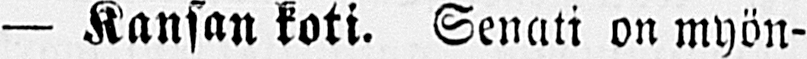— Kansan koti. Senati on myön-
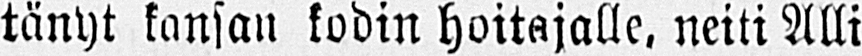tänyt kansan kodin hoitajalle, neiti Alli
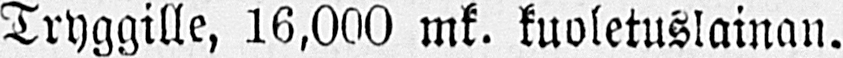Tryggille, 16,000 mk. kuoletuslainan.
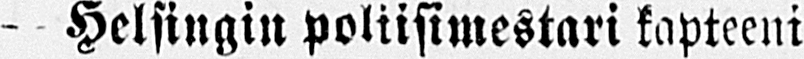- Helsingin poliisimestari kapteeni
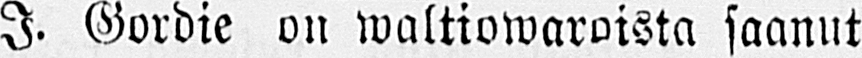I. Gordie on waltiowaroista saanut
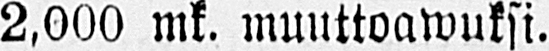2,000 mk. muuttoawuksi.
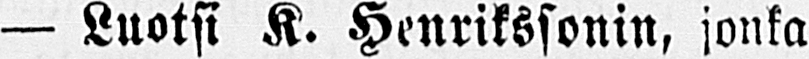— Luotsi K. Henrikssonin, jonka
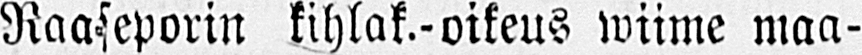Raaseporin kihlak.-oikeus wiime maa-
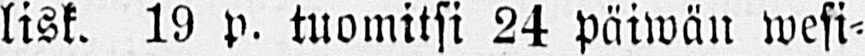lisk. 19 p. tuomitsi 24 päiwän wesi-
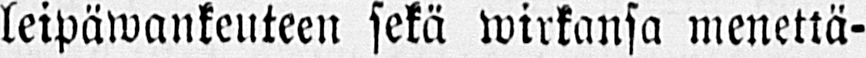leipäwankeuteen sekä wirkansa menettä-
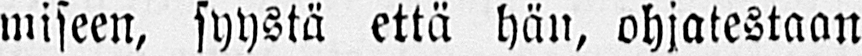miseen, syystä että hän, ohjatestaan
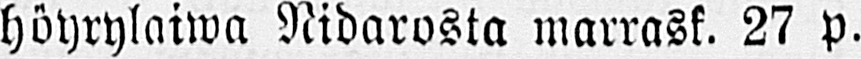höyrylaiwa Nidarosta marrask. 27 p.
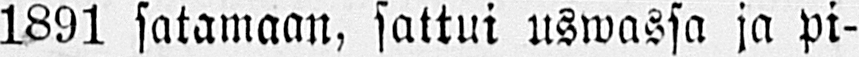1891 satamaan, sattui uswassa ja pi-
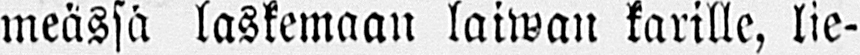meässä laskemaan laiwan karille, lie-
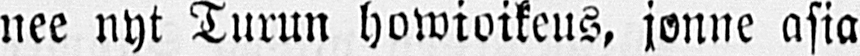nee nyt Turun howioikeus, jonne asia
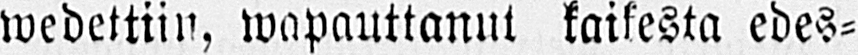wedettiin, wapauttanut kaikesta edes-
